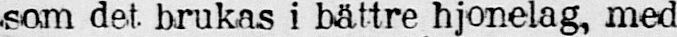som det. brukas i bättre hjonelag, med
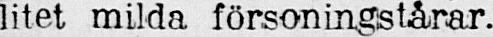litet milda försoningstårar.
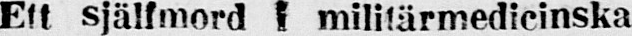Ett själfmord l militärmedicinska
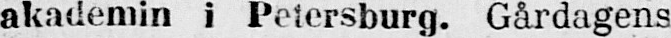akademin i Petersburg. Gårdagens
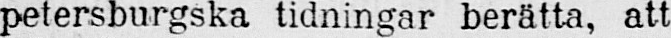petersburgska tidningar berätta, att
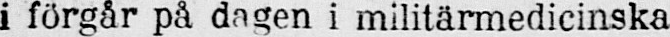i förgår på dagen i militärmedicinska
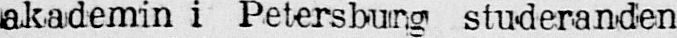akademin i Petersburg studeranden
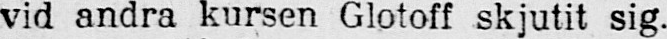vid andra kursen Glotoff skjutit sig.
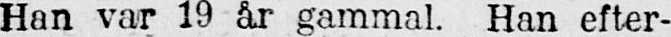Han var 19 år gammal. Han efter-
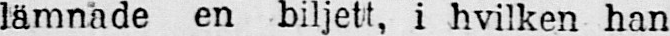lämnade en biljett, i hvilken han
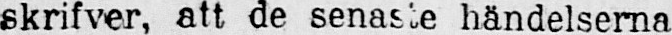skrifver, att de senaste händelserna
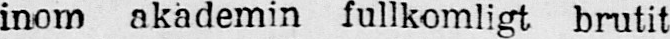inom akademin fullkomligt brutit
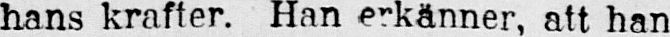hans krafter. Han erkänner, att han
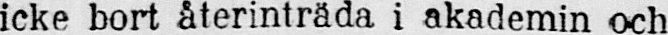icke bort återinträda i akademin och
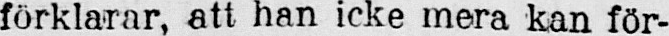förklarar, att han icke mera kan för-
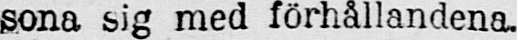sona sig med förhållandena.
